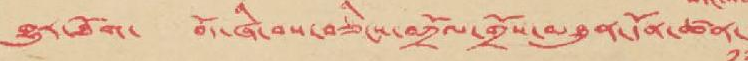གྱུར་ཐོག་ བོད་ཞི་བས་བཅིངས་བཀྲོལ་གྲོས་མཐུན་དོན་ཚན་
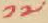༡༧
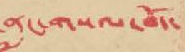ནང་གསལ་བོད་
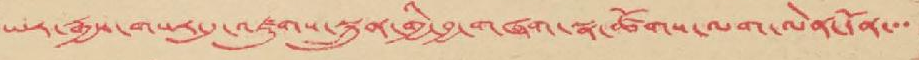ཡར་རྒྱས་གསར་དུ་འཛུགས་སྐྲུན་གྱི་བྱ་གཞག་སྣ་ཚོགས་ལག་ལེན་དོན་་་
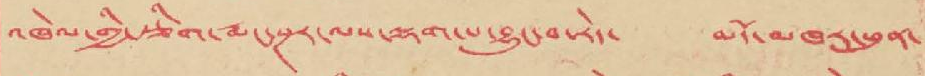འཁེལ་གྱི་རྩིག་རྨང་སྔར་ལས་ལྷག་པ་བྱུང་བ་རེད་ མདོ་མཁར་ཕུན་
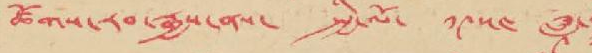ཚོགས་རབ་རྒྱས་ནས་ སྤྱི་ལོ་ ༡༩༥༤ ཟླ་
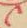༩
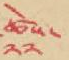ཚེས་
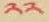༢༢
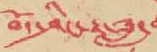བོད་ཤིང་རྟ་ཟླ་
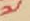༧
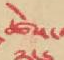ཚེས་
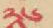༢༦
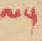ལ་།
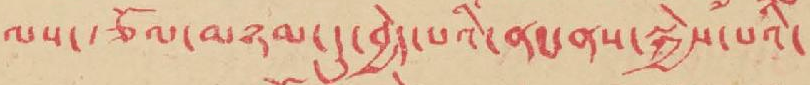ལས་རྩོལ་མཉམ་དུ་བྱེད་པའི་ནང་ནས་སྐྱེས་པའི་
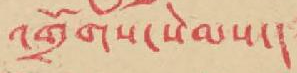འགྲོགས་སེམས་།
